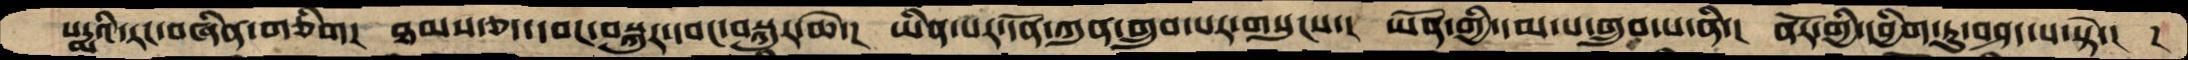པདྨའི་རང་བཞིན་གཅིག།  ཐམས་ཅད་དབང་བསྐུར་དབང་བསྐུར་ཆེ་།  ཡིན་པར་དོན་ཀུན་གྲུབ་པར་གསུངས་།  ཡོན་གྱི་དམ་པ་གྲུབ་པ་ནི་།  ནོར་གྱི་དབྱིག་ཏུ་བཤད་པ་སྟེ་།   ཌ
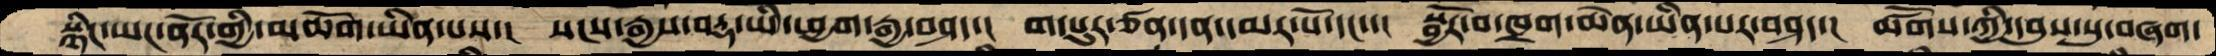སྙིང་ཡང་ནོར་གྱི་མཆོག་ཡིན་པས་།  སངས་རྒྱས་བརྡ་ཡི་ཕྱག་རྒྱ་བཤད་།  ག་པུར་ཙན་དན་དམར་པོ་དང་་།  སྦྱོར་བ་ཁྲག་ཆེན་ཡིན་པར་བཤད་།  ཚོགས་ཀྱི་ངབུས་སུ་བཞག་
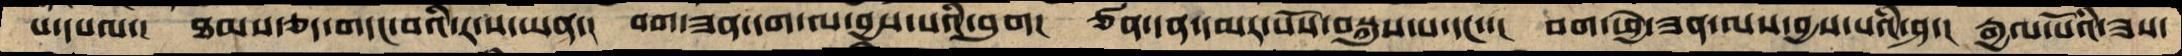པ་དཔལ་།  ཐམས་ཅད་གདང་བའི་ར་ས་ཡན་།  བག་ཟན་དག་ལ་བྱས་པའི་བུག།  ཙན་དན་དམར་པོས་བསྒྲུབ་པ་དང་་།  བག་ཕྱེ་ཟན་ལས་བྱས་པའི་ཤ་། རྒྱལ་པོའི་ཟས་
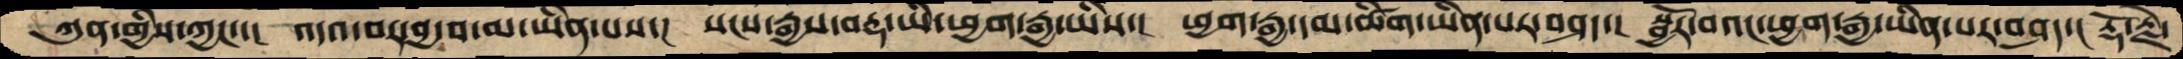ཀུན་གྱིས་ཀྱང་་།  འདའ་བར་བྱ་བ་མ་་ཡིན་པས་།  སངས་རྒྱས་བརྡ་ཡི་ཕྱག་རྒྱ་ཡིས་།  ཕྱག་རྒྱ་དམ་ཚིག་ཡིན་པར་བཤད་།  སྦྱོར་བའང་ཕྱག་རྒྱ་ཡིན་པར་བཤད་།  རྡོ་རྗེ་
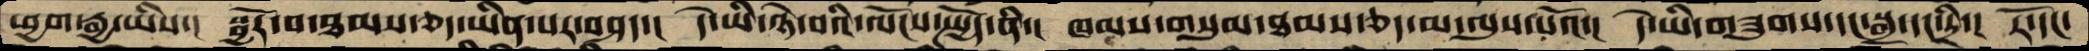ཕྱག་རྒྱ་ཡིས་།  སྦྱོར་བ་ཐམས་ཅད་ཡིན་པར་བཤད་།  དེ་ཡི་ཉེ་བའི་ལོངས་སྤྱོད་ནི་།  ཁམས་གསུམ་ཐམས་ཅད་མ་ལུས་པའོ་།  དེ་ཡི་གཟུགས་དང་སྒྲ་དང་དྲི་།  རོ་དང་
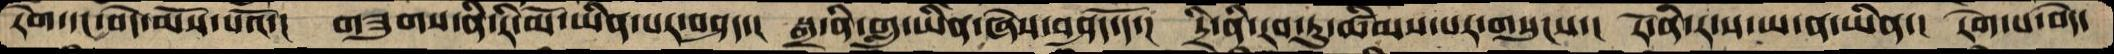རེག་དང་བདེ་མོས་པའོ་།  གཟུགས་ནི་རི་མོ་ཡིན་པར་བཤད་།  སྒྲ་ནི་གླུ་ཡིན་ཞེས་བཤད་དོ་།  དྲི་ནི་རབ་ཏུ་ཚིམས་པར་གསུངས་།  རོ་ནི་ར་ས་ཡ་ན་ཡིན་།  རེག་པ་བདེ་
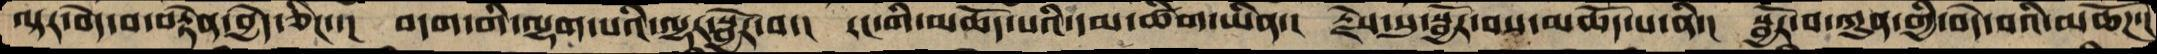ལྟར་བདེ་བ་བརྟེན་བྱེད་ཅིང་་།  བདག་གི་ལྷག་པའི་ལྷར་སྦྱོར་བ་།  རང་གི་མཆོད་པའི་དམ་ཚིག་ཡིན་།  རྗེས་སུ་སྦྱོར་བས་མཆོད་པ་ནི་།  སྦྱོར་བ་ཀུན་གྱི་བདེ་བའི་མཆོཌ་།
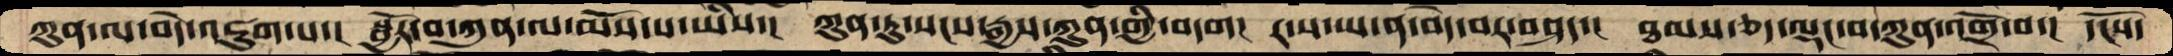ཀུན་ལ་བདེ་འཇུག་པ་།  སྦྱོར་བ་ཀུན་ལ་མོས་པ་ཡིས་།  ཀུན་ཏུ་སངས་རྒྱས་ཀུན་གྱི་བདག།  ར་ས་ཡ་ན་བདེ་བར་བཤད་།  ཐམས་ཅད་ལྡང་བ་ཀུན་འགྲོ་བ་།  དངོས་
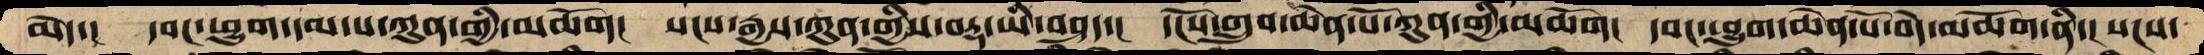མེད་།  དབང་ཕྱུག་དམ་པ་ཀུན་གྱི་མཆོག།  སངས་རྒྱས་ཀུན་གྱིས་བརྡ་ཡི་བཤད་།  དངོས་གྲུབ་ཆེན་པོ་ཀུན་གྱི་མཆོག།  དབང་ཕྱུག་ཆེན་པོ་བདེ་མཆོག་ནི་།  སངས་
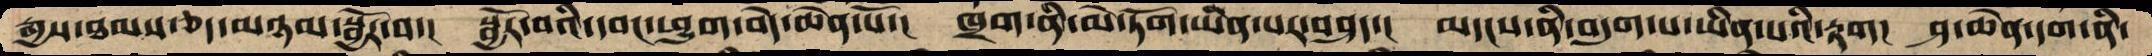རྒྱས་ཐམས་ཅད་མཉམ་སྦྱོར་བ་།  སྦྱོར་བའི་དབང་ཕྱུག་བདེ་ཆེན་པོ་།  ཁྲག་ནི་མེ་ཏོག་ཡིན་པར་བཤད་།  མདངས་ནི་བདུག་པ་ཡིན་པའི་རྟག།  ཤ་ཆེན་དག་ནི་
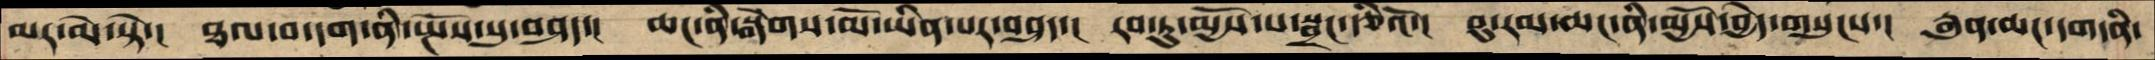མར་མེ་སྟེ་།  ཐལ་བ་དག་ནི་སྤོས་སུ་བཤད་། ཆང་ནི་སྒེགས་མོ་ཡིན་པར་བཤད་།  རབ་ཏུ་མྱོས་པ་སྦྲང་རྩིའོ་།  བུ་རམ་ཆང་ནི་མྱོས་བྱེད་གསུངས་།  རྒུན་ཆང་དག་ནི་
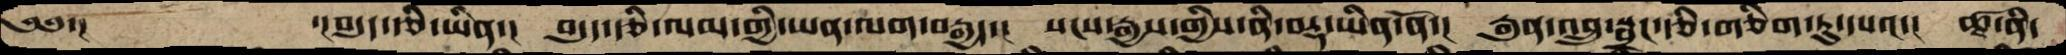༄༅་།      ་།བདུད་རྩི་ཡིན་།  བདུད་རྩི་ལམ་གྱི་ཡན་ལག་བརྒྱད་།  སངས་རྒྱས་གྱིས་ནི་བརྡ་ཡིན་ནོ་།  རྒུན་འབྲུ་སྦྲང་རྩི་གཅིག་ཏུ་དཔའ་།  ཚྭ་ནི་
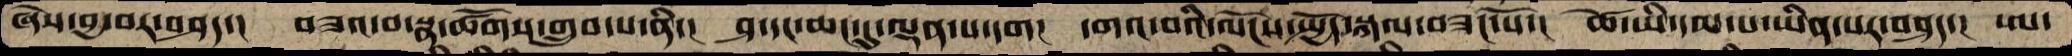ཞེས་བྱ་བར་བཤད་།  བཟའ་བ་སྣ་ཚོགས་གྲུབ་པ་ནི་།  ཤ་དང་ཆང་དུ་ལྡན་པ་དག་།  དགའ་བའི་ལོངས་སྤྱོད་སྐལ་བཟང་པོ་།  ཚེ་ཡི་དམ་པ་ཡིན་པར་བཤད་།  ཨ་
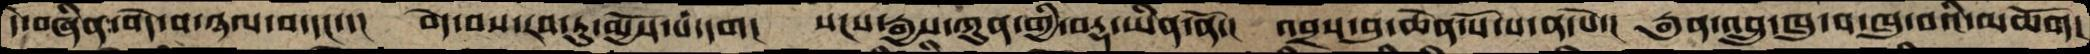དེ་བཞིན་བདེ་བ་ཉལ་བ་དང་་།  བདེ་བས་རབ་ཏུ་མྱོས་པ་དག།  སངས་རྒྱས་ཀུན་གྱི་བརྡ་ཡིན་ནོ་།  འབྲས་བུ་ཆེན་པོ་པ་ན་པེ་།  རྒུན་འབྲུ་ཁུ་བ་ཁུ་བའི་མཆོག།
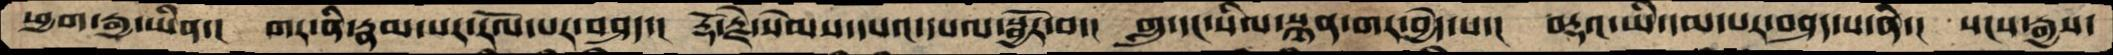ཕྱག་རྒྱ་ཡིན་།  གར་ནི་རྣམ་པར་རོལ་པར་བཤད་།  རྡོ་རྗེ་སེམས་དཔའ་དཔལ་སྦྱོར་བ་།  གླུ་དང་སིལ་སྙན་གར་བྱེད་པ་།  བརྡའ་ཡི་དམ་པར་བཤད་པ་ནི་།  སངས་རྒྱས་
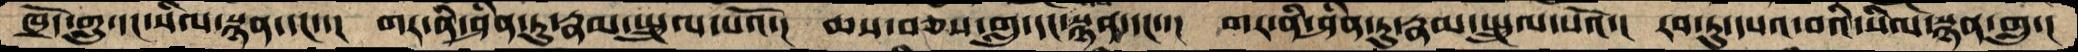ཁྲོད་གླུ་དང་སིལ་སྙན་དང་་།  གར་ནི་ཤིན་ཏུ་རྣམསྤྲུལ་པའོ་།  ཆས་བཅས་གླུ་དང་སྙན་དང་་།  གར་ནི་ཤིན་ཏུ་རྣམ་སྤྲུལ་པའོ་།  རབ་ཏུ་དཔའ་བའི་སིལ་སྙན་གླུ་།
